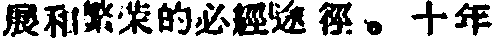展和繁荣的必經途徑。十年
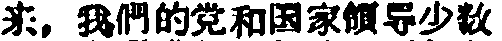来，我們的党和国家領导少数
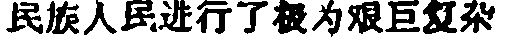民族人民进行了极为艰巨复杂
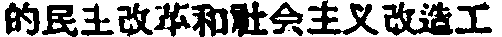的民主改革和社会主义改造工
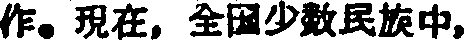作。現在，全国少数民族中，
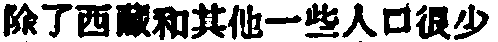除了西藏和其他一些人口很少
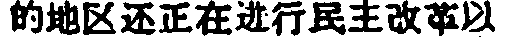的地区还正在进行民主改革以
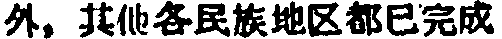外，其他各民族地区都已完成
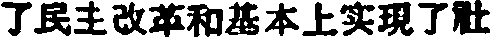了民主改革和基本上实現了社
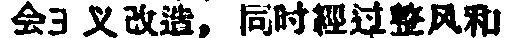会主义改造，同时經过整风和
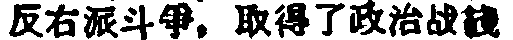反右派斗爭，取得了政治战綫
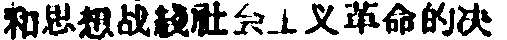和思想战綫社会主义革命的決
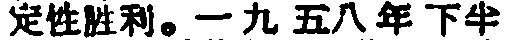定性胜利。一九五八年下半
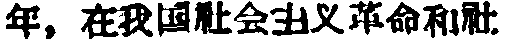年，在我国社会主义革命和社
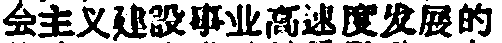会主义建設事业高速度发展的
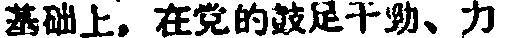基础上，在党的鼓足干勁、力
